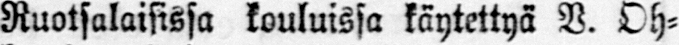Ruotsalaisissa kouluissa käytettyä V. Öh-
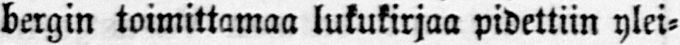bergin toimittamaa lukukirjaa pidettiin ylei-
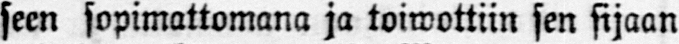seen sopimattomana ja toiwottiin sen sijaan
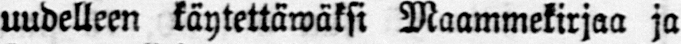uudelleen käytettäwäksi Maammekirjaa ja
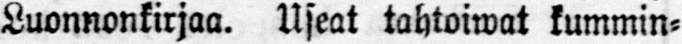Luonnonkirjaa. Useat tahtoiwat kummin-
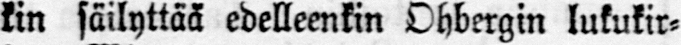kin säilyttää edelleenkin Öhbergin lukukir-
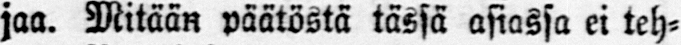jaa. Mitään päätöstä tässä asiassa ei teh-
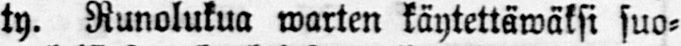ty. Runolukua warten käytettäwäksi suo-
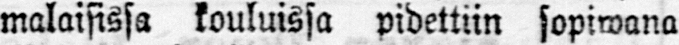malaisissa kouluissa pidettiin sopiwana
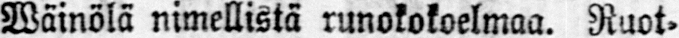Wäinölä nimellistä runokokoelmaa. Ruot-
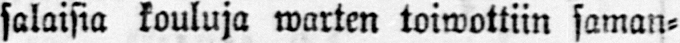salaisia kouluja warten toiwottiin saman-
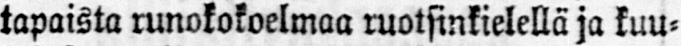tapaista runokokoelmaa ruotsinkielellä ja kuu-
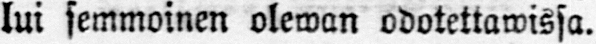lui semmoinen olewan odotettawissa.
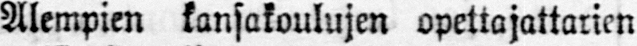Alempien kansakoulujen opettajattarien
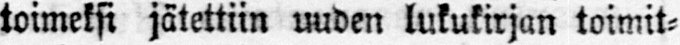toimeksi jätettiin uuden lukukirjan toimit-
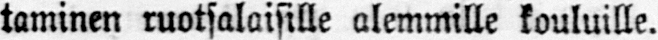taminen ruotsalaisille alemmille kouluille.
